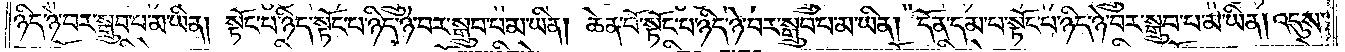ཉིད་ཉེ་བར་སྒྲུབ་པ་མ་ཡིན། སྟོང་པ་ཉིད་སྟོང་པ་ཉིད་ཉེ་བར་སྒྲུབ་པ་མ་ཡིན། ཆེན་པོ་སྟོང་པ་ཉིད་ཉེ་བར་སྒྲུབ་པ་མ་ཡིན། དོན་དམ་པ་སྟོང་པ་ཉིད་ཉེ་བར་སྒྲུབ་པ་མ་ཡིན། འདུས་
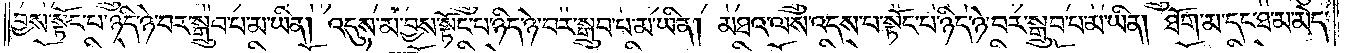བྱས་སྟོང་པ་ཉིད་ཉེ་བར་སྒྲུབ་པ་མ་ཡིན། འདུས་མ་བྱས་སྟོང་པ་ཉིད་ཉེ་བར་སྒྲུབ་པ་མ་ཡིན། མཐའ་ལས་འདས་པ་སྟོང་པ་ཉིད་ཉེ་བར་སྒྲུབ་པ་མ་ཡིན། ཐོག་མ་དང་ཐ་མ་མེད་
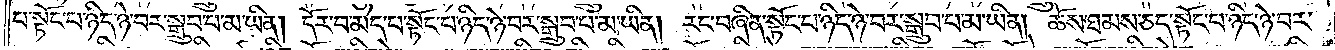པ་སྟོང་པ་ཉིད་ཉེ་བར་སྒྲུབ་པ་མ་ཡིན། དོར་བ་མེད་པ་སྟོང་པ་ཉིད་ཉེ་བར་སྒྲུབ་པ་མ་ཡིན། རང་བཞིན་སྟོང་པ་ཉིད་ཉེ་བར་སྒྲུབ་པ་མ་ཡིན། ཆོས་ཐམས་ཅད་སྟོང་པ་ཉིད་ཉེ་བར་
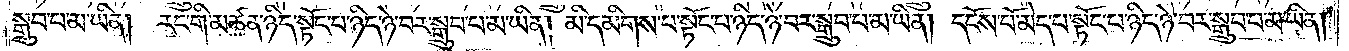སྒྲུབ་པ་མ་ཡིན། རང་གི་མཚན་ཉིད་སྟོང་པ་ཉིད་ཉེ་བར་སྒྲུབ་པ་མ་ཡིན། མི་དམིགས་པ་སྟོང་པ་ཉིད་ཉེ་བར་སྒྲུབ་པ་མ་ཡིན། དངོས་པོ་མེད་པ་སྟོང་པ་ཉིད་ཉེ་བར་སྒྲུབ་པ་མ་ཡིན།
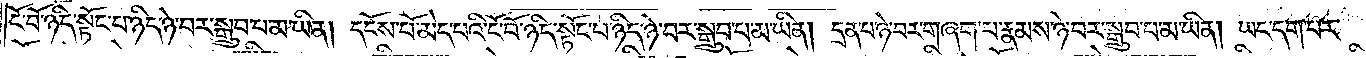ངོ་བོ་ཉིད་སྟོང་པ་ཉིད་ཉེ་བར་སྒྲུབ་པ་མ་ཡིན། དངོས་པོ་མེད་པའི་ངོ་བོ་ཉིད་སྟོང་པ་ཉིད་ཉེ་བར་སྒྲུབ་པ་མ་ཡིན། དྲན་པ་ཉེ་བར་གཞག་པ་རྣམས་ཉེ་བར་སྒྲུབ་པ་མ་ཡིན། ཡང་དག་པར་
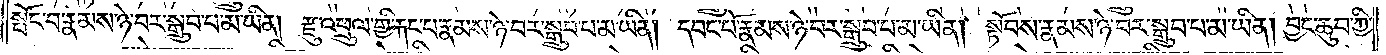སྤོང་བ་རྣམས་ཉེ་བར་སྒྲུབ་པ་མ་ཡིན། རྫུ་འཕྲུལ་གྱི་རྐང་པ་རྣམས་ཉེ་བར་སྒྲུབ་པ་མ་ཡིན། དབང་པོ་རྣམས་ཉེ་བར་སྒྲུབ་པ་མ་ཡིན། སྟོབས་རྣམས་ཉེ་བར་སྒྲུབ་པ་མ་ཡིན། བྱང་ཆུབ་ཀྱི་
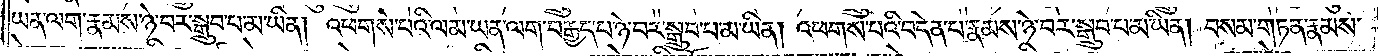ཡན་ལག་རྣམས་ཉེ་བར་སྒྲུབ་པ་མ་ཡིན། འཕགས་པའི་ལམ་ཡན་ལག་བརྒྱད་པ་ཉེ་བར་སྒྲུབ་པ་མ་ཡིན། འཕགས་པའི་བདེན་པ་རྣམས་ཉེ་བར་སྒྲུབ་པ་མ་ཡིན། བསམ་གཏན་རྣམས་
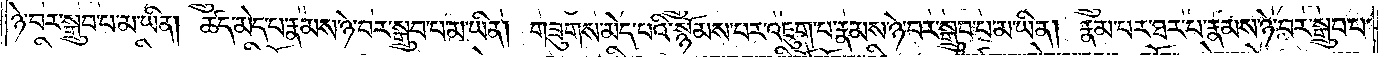ཉེ་བར་སྒྲུབ་པ་མ་ཡིན། ཚད་མེད་པ་རྣམས་ཉེ་བར་སྒྲུབ་པ་མ་ཡིན། གཟུགས་མེད་པའི་སྙོམས་པར་འཇུག་པ་རྣམས་ཉེ་བར་སྒྲུབ་པ་མ་ཡིན། རྣམ་པར་ཐར་བ་རྣམས་ཉེ་བར་སྒྲུབ་པ་
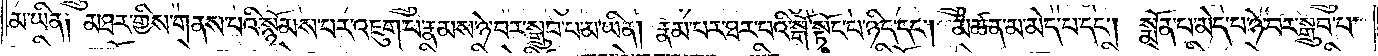མ་ཡིན། མཐར་གྱིས་གནས་པའི་སྙོམས་པར་འཇུག་པ་རྣམས་ཉེ་བར་སྒྲུབ་པ་མ་ཡིན། རྣམ་པར་ཐར་པའི་སྒོ་སྟོང་པ་ཉིད་དང༌། མཚན་མ་མེད་པ་དང༌། སྨོན་པ་མེད་པ་ཉེ་བར་སྒྲུབ་པ་
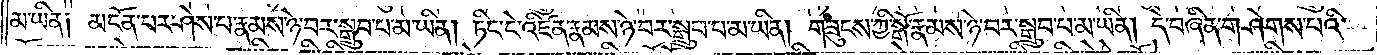མ་ཡིན༑ མངོན་པར་ཤེས་པ་རྣམས་ཉེ་བར་སྒྲུབ་པ་མ་ཡིན། ཏིང་ངེ་འཛིན་རྣམས་ཉེ་བར་སྒྲུབ་པ་མ་ཡིན། གཟུངས་ཀྱི་སྒོ་རྣམས་ཉེ་བར་སྒྲུབ་པ་མ་ཡིན། དེ་བཞིན་གཤེགས་པའི་
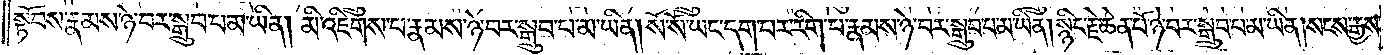སྟོབས་རྣམས་ཉེ་བར་སྒྲུབ་པ་མ་ཡིན། མི་འཇིགས་པ་རྣམས་ཉེ་བར་སྒྲུབ་པ་མ་ཡིན། སོ་སོ་ཡང་དག་པར་རིག་པ་རྣམས་ཉེ་བར་སྒྲུབ་པ་མ་ཡིན། སྙིང་རྗེ་ཆེན་པོ་ཉེ་བར་སྒྲུབ་པ་མ་ཡིན། སངས་རྒྱས་
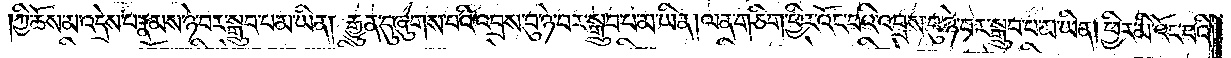ཀྱི་ཆོས་མ་འདྲེས་པ་རྣམས་ཉེ་བར་སྒྲུབ་པ་མ་ཡིན། རྒྱུན་དུ་ཞུགས་པའི་འབྲས་བུ་ཉེ་བར་སྒྲུབ་པ་མ་ཡིན། ལན་གཅིག་ཕྱིར་འོང་བའི་འབྲས་བུ་ཉེ་བར་སྒྲུབ་པ་མ་ཡིན། ཕྱིར་མི་འོང་བའི་
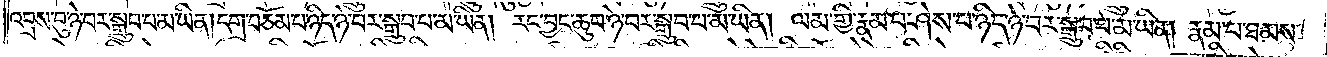འབྲས་བུ་ཉེ་བར་སྒྲུབ་པ་མ་ཡིན། དགྲ་བཅོམ་པ་ཉིད་ཉེ་བར་སྒྲུབ་པ་མ་ཡིན། རང་བྱང་ཆུབ་ཉེ་བར་སྒྲུབ་པ་མ་ཡིན། ལམ་གྱི་རྣམ་པ་ཤེས་པ་ཉིད་ཉེ་བར་སྒྲུབ་པ་མ་ཡིན། རྣམ་པ་ཐམས་
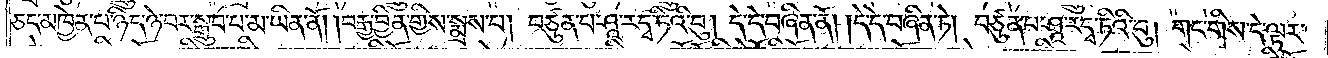ཅད་མཁྱེན་པ་ཉིད་ཉེ་བར་སྒྲུབ་པ་མ་ཡིན་ནོ། །བརྒྱ་བྱིན་གྱིས་སྨྲས་པ། བཙུན་པ་ཤཱ་ར་དྭ་ཏིའི་བུ། དེ་དེ་བཞིན་ནོ། །དེ་དེ་བཞིན་ཏེ། བཙུན་པ་ཤཱ་ར་དྭ་ཏིའི་བུ། གང་གིས་དེ་ལྟར་
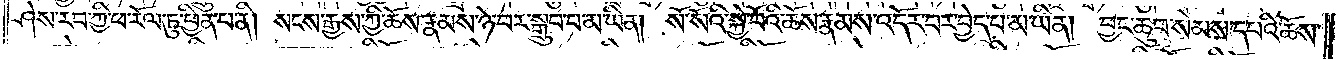ཤེས་རབ་ཀྱི་ཕ་རོལ་ཏུ་ཕྱིན་པ་ནི། སངས་རྒྱས་ཀྱི་ཆོས་རྣམས་ཉེ་བར་སྒྲུབ་པ་མ་ཡིན། སོ་སོའི་སྐྱེ་བོའི་རྣམས་འདོར་བར་བྱེད་པ་མ་ཡིན། བྱང་ཆུབ་སེམས་དཔའི་ཆོས་
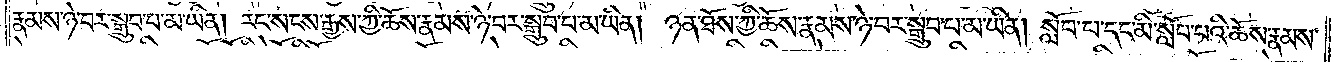རྣམས་ཉེ་བར་སྒྲུབ་པ་མ་ཡིན། རང་སངས་རྒྱས་ཀྱི་ཆོས་རྣམས་ཉེ་བར་སྒྲུབ་པ་མ་ཡིན། ཉན་ཐོས་ཀྱི་ཆོས་རྣམས་ཉེ་བར་སྒྲུབ་པ་མ་ཡིན། སློབ་པ་དང་མི་སློབ་པའི་ཆོས་རྣམས་
